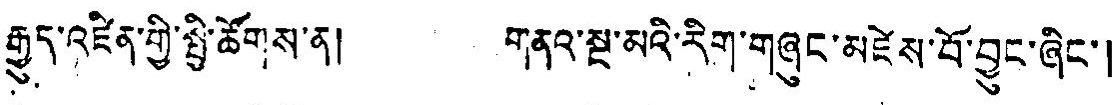རྒྱུད་འཛིན་གྱི་སྤྱི་ཚོགས་ན། གནའ་སྔ་མའི་རིག་གཞུང་མཛེས་བོ་བྱུང་ཞིང་།
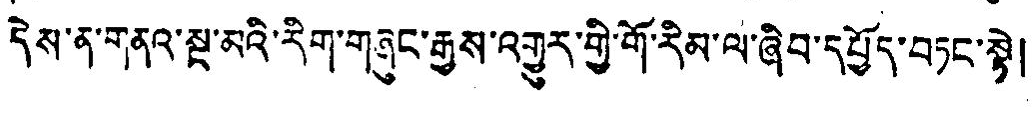དེས་ན་གནའ་སྔ་མའི་རིག་གཞུང་རྒྱས་འགྱུར་གྱི་གོ་རིམ་ལ་ཞིབ་དཔྱོད་གཏང་སྟེ།
